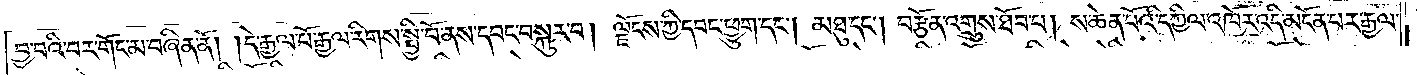བྱ་བའི་བར་གོང་མ་བཞིན་ནོ། །དེ་རྒྱལ་པོ་རྒྱལ་རིགས་སྤྱི་བོ་ནས་དབང་བསྐུར་བ། ལྗོངས་ཀྱི་དབང་ཕྱུག་དང༌། མཐུ་དང༌། བརྩོན་འགྲུས་ཐོབ་པ། ས་ཆེན་པོའི་དཀྱིལ་འཁོར་འདི་མངོན་པར་རྒྱལ་
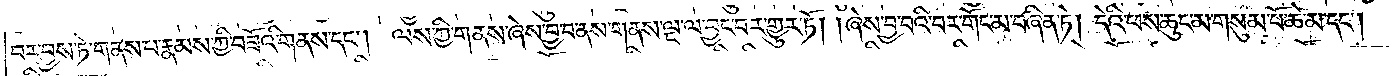བར་བྱས་ཏེ་གནས་པ་རྣམས་ཀྱི་བཟོའི་གནས་དང༌། ལས་ཀྱི་གནས་ཞེས་བྱ་བ་ནས་གནས་ལྔ་ལ་བྱང་བར་གྱུར་ཏོ། །ཞེས་བྱ་བའི་བར་གོང་མ་བཞིན་ཏེ། དེའི་ཕས་ཆུང་མ་གསུམ་པོ་ཆེ་མ་དང༌།
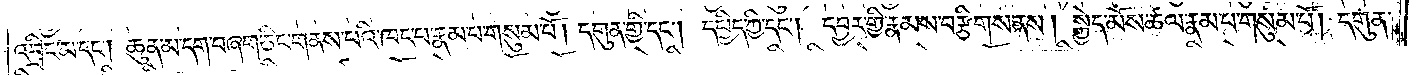འབྲིང་མ་དང༌། ཆུན་མ་དག་བཞག་ཅིང་གནས་པའི་ཁང་པ་རྣམ་པ་གསུམ་པོ། དགུན་གྱི་དང༌། དཔྱིད་ཀྱི་དང༌། དབྱར་གྱི་རྣམས་བརྩིགས་ནས། སྐྱེད་མོས་ཚལ་རྣམ་པ་གསུམ་པོ། དགུན་
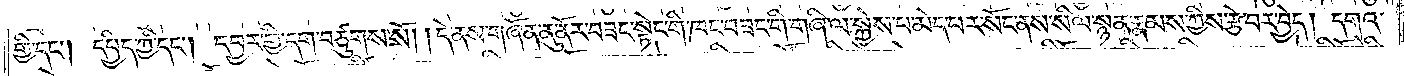གྱི་དང༌། དཔྱིད་ཀྱི་དང༌། དབྱར་གྱི་དག་བཙུགས་སོ། །དེ་ནས་གཞོན་ནུ་ནོར་བཟང་སྟེང་གི་ཁང་བཟང་གི་གཞི་ལ་སྐྱེས་པ་མེད་པར་སོང་ནས་སིལ་སྙན་རྣམས་ཀྱིས་རྩེ་བར་བྱེད། དགའ་
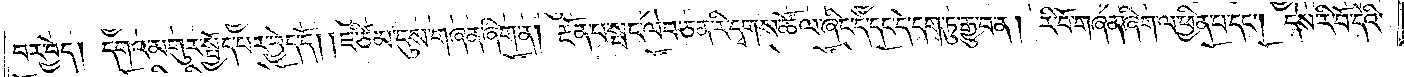བར་བྱེད། དགའ་མགུར་སྤྱོད་པར་བྱེད་དོ། །ཇི་ཙམ་དུས་གཞན་ཞིག་ན། རྔོན་པ་སྤང་ལེབ་ཅན་རི་དྭགས་ཚོལ་ཞིང་དེ་དང་དེ་དག་ཏུ་རྒྱུ་བ་ན། རི་བོ་གཞན་ཞིག་ལ་ཕྱིན་པ་དང༌། དེས་རི་བོ་དེའི་
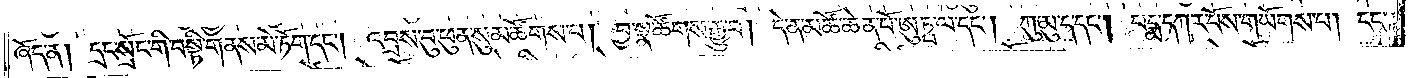ཞོད་ན། དྲང་སྲོང་གི་བསྟི་གནས་མེ་ཏོག་དང༌། འབྲས་བུ་ཕུན་སུམ་ཚོགས་པ། བྱ་སྣ་ཚོགས་རྒྱུ་བ། དེ་ན་མཚོ་ཆེན་པོ་ཨུཏྤ་ལ་དང༌། ཀུ་མུ་ད་དང༌། པདྨ་དཀར་པོས་གཡོགས་པ། ངང་
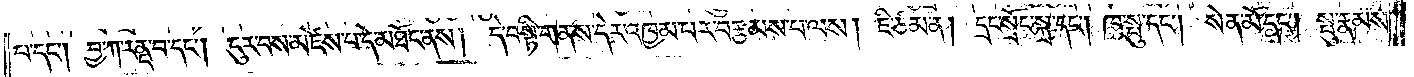པ་དང༌། བྱ་ཀ་རནྡ་བ་དང༌། ངུར་བས་མཛེས་པ་དེ་མཐོང་ནས། དེ་བསྟི་གནས་དེར་འཁྱམ་པར་བརྩམས་པ་ལས། ཇི་ཙམ་ན། དྲང་སྲོང་སྐྲ་དང༌། ཁ་སྤུ་དང༌། སེན་མོ་དང༌། སྤུ་རྣམས་
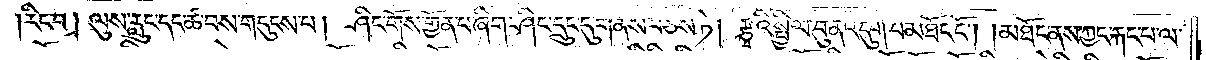།རིང་བ། ལུས་རླུང་དང་ཚ་བས་གདུངས་པ། ཤིང་གོས་གྱོན་པ་ཞིག་ཤིང་དྲུང་དུ་གནས་བཅས་ཏེ། རྩྭའི་སྤྱིལ་བུ་ན་འདུག་པ་མཐོང་ངོ༌། །མཐོང་ནས་ཀྱང་རྐང་པ་ལ་
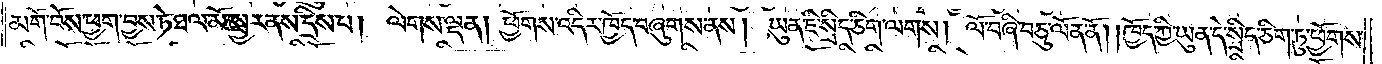མགོ་བོས་ཕྱག་བྱས་ཏེ་ཐལ་མོ་སྦྱར་ནས་དྲིས་པ། ལེགས་ལྡན། ཕྱོགས་འདིར་ཁྱོད་བཞུགས་ནས། ཡུན་ཇི་སྲིད་ཅིག་ལགས། ལོ་བཞི་བཅུ་ལོན་ནོ། །ཁྱོད་ཀྱི་ཡུན་དེ་སྲིད་ཅིག་ཏུ་ཕྱོགས་
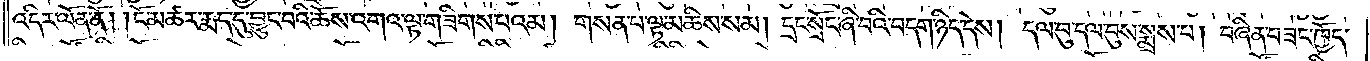འདིར་ལོན་ནོ། །ངོ་མཚར་རྨད་དུ་བྱུང་བའི་ཆོས་འགའ་ལྟ་གཟིགས་པའམ། གསན་པ་ལྟ་མཆིས་སམ། དྲང་སྲོང་ཞི་བའི་བདག་ཉིད་དེས། དལ་བུ་དལ་བུས་སྨྲས་པ། བཞིན་བཟང་ཁྱོད་
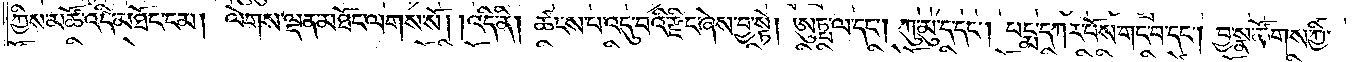ཀྱིས་མཚོ་འདི་མཐོང་ངམ། ལེགས་ལྡན་མཐོང་ལགས་སོ། །འདི་ནི། །ཚངས་པ་འདུ་བའི་རྫིང་ཞེས་བྱ་སྟེ། ཨུཏྤ་ལ་དང༌། ཀུ་མུ་ད་དང༌། པདྨ་དཀར་པོས་གང་བ་དང༌། བྱ་སྣ་ཚོགས་ཀྱི་
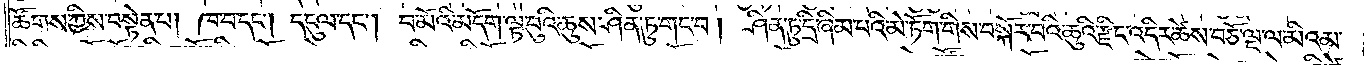ཚོགས་ཀྱིས་བསྟེན་པ། ཁ་བ་དང༌། དངུལ་དང༌། བ་མོའི་མདོག་ལྟ་བུའི་ཆུས་ཤིན་ཏུ་གང་བ། ཤིན་ཏུ་དྲི་ཞིམ་པའི་མེ་ཏོག་གིས་བསྐོར་བའི་ཆུའི་རྫིང་འདིར་ཚེས་བཅོ་ལྔ་ལ་མིའམ་
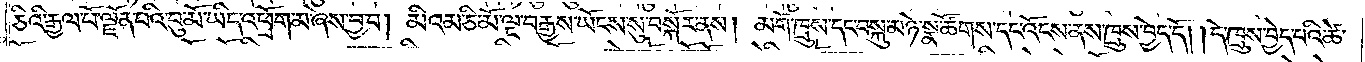ཅིའི་རྒྱལ་པོ་ལྗོན་པའི་བུ་མོ་ཡིད་འཕྲོག་མ་ཞེས་བྱ་བ། མིའམ་ཅི་མོ་ལྔ་བརྒྱས་ཡོངས་སུ་བསྐོར་ནས། མགོ་ཁྲུས་དང་བསྐུ་མཉེ་སྣ་ཚོགས་དང་འོངས་ནས་ཁྲུས་བྱེད་དོ། །དེ་ཁྲུས་བྱེད་པའི་ཚེ་
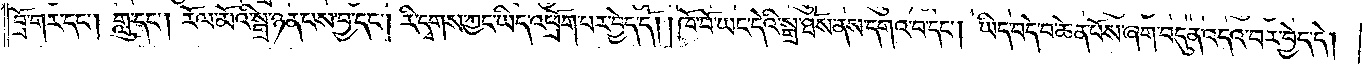བྲོ་གར་དང༌། གླུ་དང༌། རོལ་མོའི་སྒྲ་ཉན་པས་བྱ་དང༌། རི་དྭགས་ཀྱང་ཡིད་འཕྲོག་པར་བྱེད་དོ། །ཁོ་བོ་ཡང་དེའི་སྒྲ་ཐོས་ནས་དགའ་བ་དང༌། ཡིད་བདེ་བ་ཆེན་པོས་ཞག་བདུན་འདའ་བར་བྱེད་དེ།
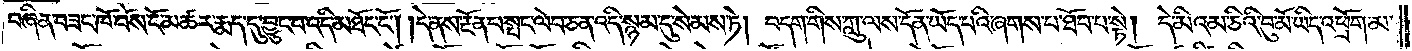བཞིན་བཟང་ཁོ་བོས་ངོ་མཚར་རྨད་དུ་བྱུང་བ་འདི་མཐོང་ངོ༌། །དེ་ནས་རྔོན་པ་སྤང་ལེབ་ཅན་འདི་སྙམ་དུ་སེམས་ཏེ། བདག་གིས་ཀླུ་ལས་དོན་ཡོད་པའི་ཞགས་པ་ཐོབ་པ་སྟེ། དེ་མིའམ་ཅིའི་བུ་མོ་ཡིད་འཕྲོག་མ་
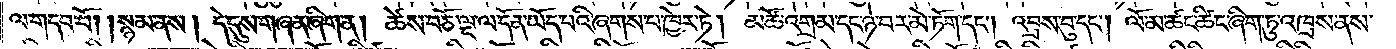ལ་གདབ་བོ། །སྙམ་ནས། དེ་དུས་གཞན་ཞིག་ན། ཚེས་བཅོ་ལྔ་ལ་དོན་ཡོད་པའི་ཞགས་པ་ཁྱེར་ཏེ། མཚོ་འགྲམ་དང་ཉེ་བར་མེ་ཏོག་དང༌། འབྲས་བུ་དང༌། ལོ་མ་ཚང་ཚིང་ཞིག་ཏུ་འཁྲས་ནས་
